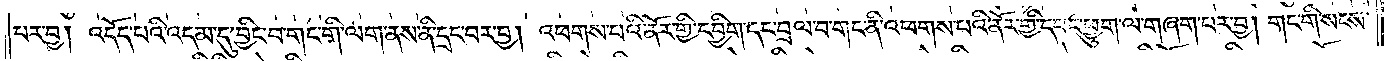པར་བྱ། འདོད་པའི་འདམ་དུ་བྱིང་བ་གང་གི་ལག་ནས་ནི་དྲང་བར་བྱ། འཕགས་པའི་ནོར་གྱི་དབྱིག་དང་བྲལ་བ་གང་ནི་འཕགས་པའི་ནོར་གྱི་དབང་ཕྱུག་ལ་གཞག་པར་བྱ། གང་གི་སངས་
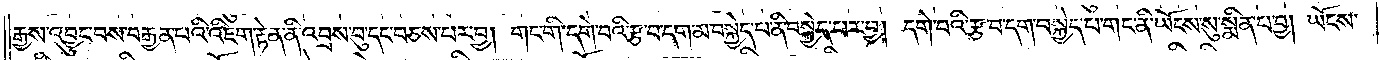རྒྱས་འབྱུང་བས་བརྒྱན་པའི་འཇིག་རྟེན་ནི་འབྲས་བུ་དང་བཅས་པར་བྱ། གང་གི་དགེ་བའི་རྩ་བ་དག་མ་བསྐྱེད་པ་ནི་བསྐྱེད་པར་བྱ། དགེ་བའི་རྩ་བ་དག་བསྐྱེད་པ་གང་ནི་ཡོངས་སུ་སྨིན་པ་བྱ། ཡོངས་
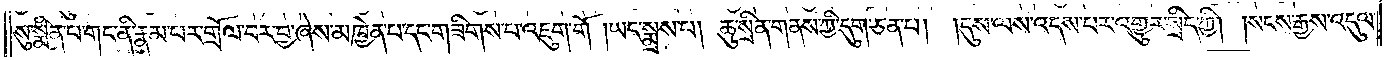སུ་སྨིན་པ་གང་ནི་རྣམ་པར་གྲོལ་བར་བྱ་ཞེས་མཁྱེན་པ་དང་གཟིགས་པ་འཇུག་གོ །ཡང་སྨྲས་པ། ཆུ་སྲིན་གནས་ཀྱི་དུག་ཅན་པ། །དུས་ལས་འདས་པར་འགྱུར་སྲིད་ཀྱི། །སངས་རྒྱས་འདུལ་
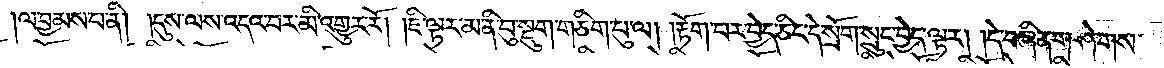ལ་བྱམས་པ་ནི། །དུས་ལས་འདའ་བར་མི་འགྱུར་རོ། །ཇི་ལྟར་མ་ནི་བུ་སྡུག་གཅིག་བུ་ལ། །རྟོག་པར་བྱེད་ཅིང་དེ་སྲོག་སྲུང་བྱེད་ལྟར། །དེ་བཞིན་གཤེགས་
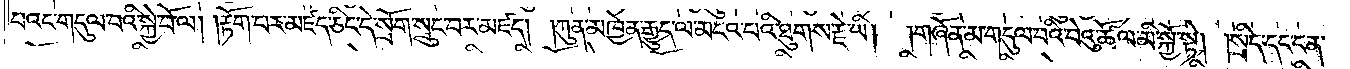པའང་གདུལ་བའི་སྐྱེ་བོ་ལ། །རྟོག་པར་མཛད་ཅིང་དེ་སྲོག་སྲུང་བར་མཛད། །ཀུན་མཁྱེན་རྒྱུད་ལ་མངའ་པའི་ཐུགས་རྗེ་ཡི། །གཞོན་མ་གདུལ་བའི་བེའུ་ཚོལ་མི་སྐྱོ་སྟེ། །སྲིད་དང་ངན་
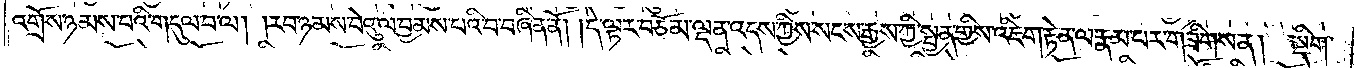འགྲོས་ཉམས་པའི་གདུལ་བ་ལ། །རབ་ཉམས་བེའུ་ལ་བྱམས་པའི་བ་བཞིན་ནོ། །དེ་ལྟར་བཅོམ་ལྡན་འདས་ཀྱིས་སངས་རྒྱས་ཀྱི་སྤྱན་གྱིས་འཇིག་རྟེན་ལ་རྣམ་པར་གཟིགས་ན། སྡིག་
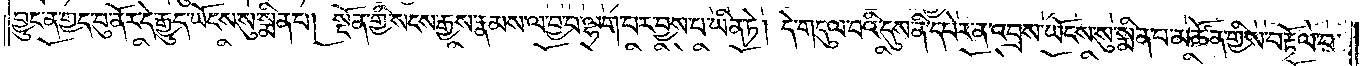བྱུང་ན་གྱད་བུ་ནོར་དེ་རྒྱུད་ཡོངས་སུ་སྨིན་པ། སྔོན་གྱི་སངས་རྒྱས་རྣམས་ལ་བྱ་བ་ལྷག་པར་བྱས་པ་ཡིན་ཏེ། དེ་གདུལ་བའི་དུས་ནི་དཔེར་ན་འབྲས་ཡོངས་སུ་སྨིན་པ་མཚོན་གྱིས་བརྟོལ་བ་
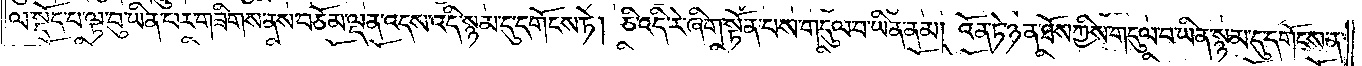ལ་སྡོད་པ་ལྟ་བུ་ཡིན་པར་གཟིགས་ནས་བཅོམ་ལྡན་འདས་འདི་སྙམ་དུ་དགོངས་ཏེ། ཅི་འདི་རེ་ཞིག་སྟོན་པས་གདུལ་བ་ཡིན་ནམ། འོན་ཏེ་ཉན་ཐོས་ཀྱིས་གདུལ་བ་ཡིན་སྙམ་དུ་དགོངས་ན་
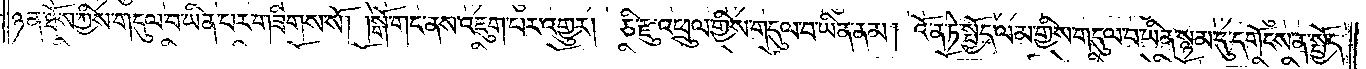ཉན་ཐོས་ཀྱིས་གདུལ་བ་ཡིན་པར་གཟིགས་སོ། །སྒོ་གང་ནས་འཇུག་པར་འགྱུར། ཅི་རྫུ་འཕྲུལ་གྱིས་གདུལ་བ་ཡིན་ནམ། འོན་ཏེ་སྤྱོད་ལམ་གྱིས་གདུལ་བ་ཡིན་སྙམ་དུ་དགོངས་ན་སྤྱོད་
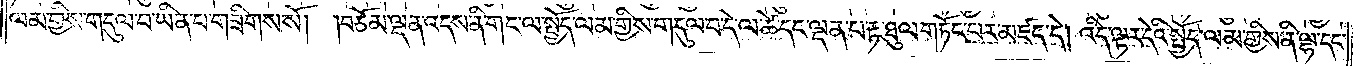ལམ་གྱིས་གདུལ་བ་ཡིན་པ་གཟིགས་སོ། །བཅོམ་ལྡན་འདས་ནི་གང་ལ་སྤྱོད་ལམ་གྱིས་གདུལ་བ་དེ་ལ་ཚེ་དང་ལྡན་པ་རྟ་ཐུལ་གཏོང་པར་མཛད་དེ། འདི་ལྟར་དེའི་སྤྱོད་ལམ་གྱིས་ནི་ལྷ་དང་
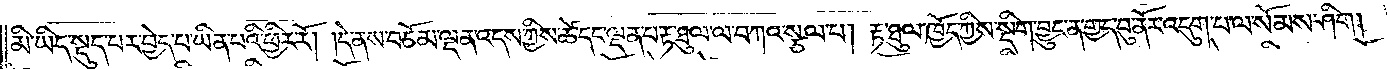མི་ཡིད་སྡུད་པར་བྱེད་པ་ཡིན་པའི་ཕྱིར་རོ། །དེ་ནས་བཅོམ་ལྡན་འདས་ཀྱིས་ཚེ་དང་ལྡན་པ་རྟ་ཐུལ་ལ་བཀའ་སྩལ་པ། རྟ་ཐུལ་ཁྱོད་ཀྱིས་སྡིག་བྱུང་ན་གྱད་བུ་ནོར་འདུག་པ་ལ་སོམས་ཤིག །
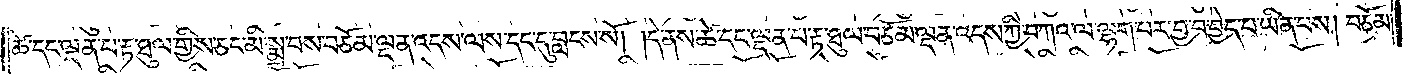ཚེ་དང་ལྡན་པ་རྟ་ཐུལ་གྱིས་ཅང་མི་སྨྲ་བས་བཅོམ་ལྡན་འདས་ལས་དང་དུ་བླངས་སོ། །དེ་ནས་ཚེ་དང་ལྡན་པ་རྟ་ཐུལ་བཅོམ་ལྡན་འདས་ཀྱི་བཀའ་ལ་ལྷག་པར་བྱ་བ་བྱེད་པ་ཡིན་པས། བཅོམ་
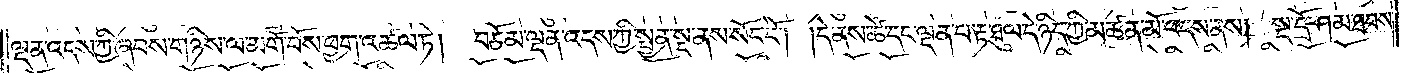ལྡན་འདས་ཀྱི་ཞབས་གཉིས་ལ་མགོ་བོས་ཕྱག་འཚལ་ཏེ། བཅོམ་ལྡན་འདས་ཀྱི་སྤྱན་སྔ་ནས་སོང་ངོ༌། །དེ་ནས་ཚེ་དང་ལྡན་པ་རྟ་ཐུལ་དེ་ཉིད་ཀྱི་མཚན་མོ་འདས་ནས། སྔ་དྲོ་ཤམ་ཐབས་
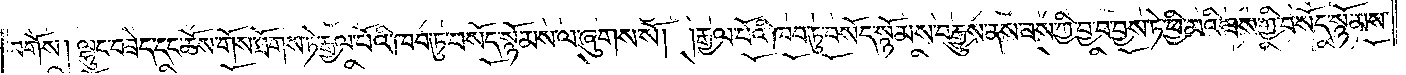བགོས། ལྷུང་བཟེད་དང་ཆོས་གོས་ཐོགས་ཏེ་རྒྱལ་པོའི་ཁབ་ཏུ་བསོད་སྙོམས་ལ་ཞུགས་སོ། །རྒྱལ་པོའི་ཁབ་ཏུ་བསོད་སྙོམས་བརྒྱུས་ནས་ཟས་ཀྱི་བྱ་བ་བྱས་ཏེ་ཕྱི་མའི་ཟས་ཀྱི་བསོད་སྙོམས་
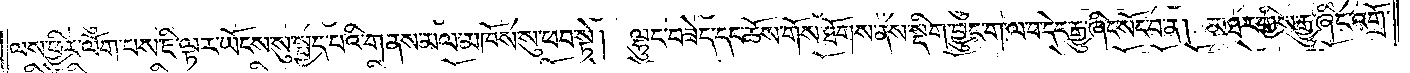ལས་ཕྱིར་ལོག་པས་ཇི་ལྟར་ཡོངས་སུ་སྤྱད་པའི་གནས་མལ་མཁོས་སུ་ཕབ་སྟེ། ལྷུང་བཟེད་དང་ཆོས་གོས་ཐོགས་ནས་སྡིག་བྱུང་ག་ལ་བ་དེར་རྒྱུ་ཞིང་སོང་བ་ན། མཐར་གྱིས་རྒྱུ་ཞིང་འགྲོ་
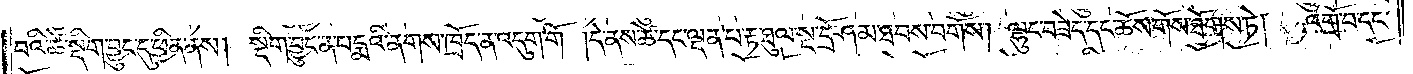བའི་ཚེ་སྡིག་བྱུང་དུ་ཕྱིན་ནས། སྡིག་བྱུང་ན་པདྨའི་ནགས་ཁྲོད་ན་འདུག་གོ །དེ་ནས་ཚེ་དང་ལྡན་པ་རྟ་ཐུལ་སྔ་དྲོ་ཤམ་ཐབས་བགོས། ལྷུང་བཟེད་དང་ཆོས་གོས་ཐོགས་ཏེ། འགྲོ་བ་དང་
